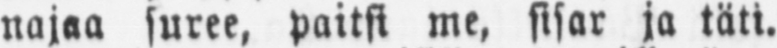najaa suree, paitsi me, sisar ja täti.
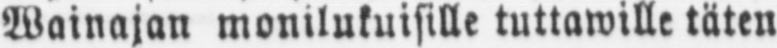Wainajan monilukuisille tuttawille täten
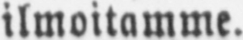ilmoitamme.
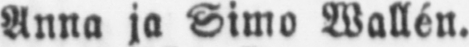Anna ja Simo Wallén.
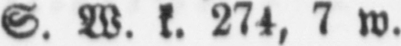S. W. k. 274, 7 w.
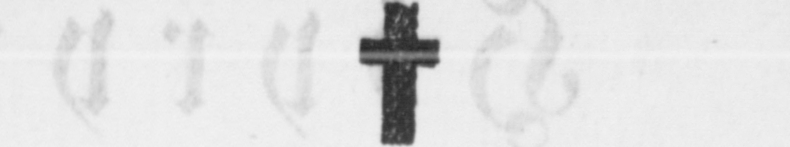†
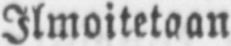Ilmoitetaan
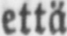että
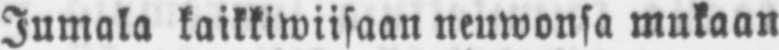Jumala kaikkiwiisaan neuwonsa mukaan
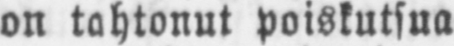on tahtonut poiskutsua
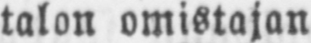talon omistajan
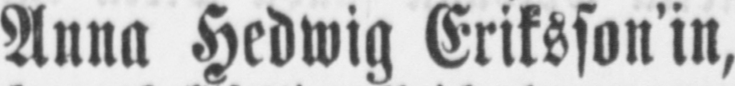Anna Hedwig Eriksson'in,
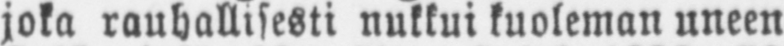joka rauhallisesti nukkui kuoleman uneen
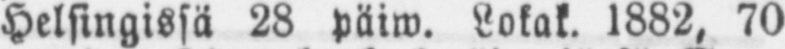Helsingissä 28 päiw. Lokak. 1882. 70
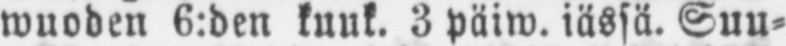wuoden 6:den kuuk. 3 päiw. iässä. Suu-
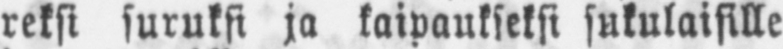reksi suruksi ja kaipaukseksi sukulaisille
